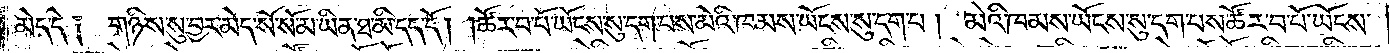མེད་དེ། གཉིས་སུ་བྱར་མེད་སོ་སོ་མ་ཡིན་ཐ་མི་དད་དོ། །ཚོར་བ་པོ་ཡོངས་སུ་དག་པས་མེའི་ཁམས་ཡོངས་སུ་དག་པ། མེའི་ཁམས་ཡོངས་སུ་དག་པས་ཚོར་བ་པོ་ཡོངས་
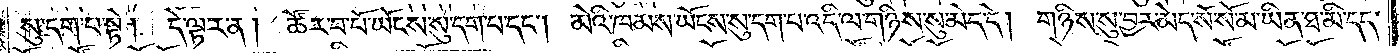སུ་དག་པ་སྟེ། དེ་ལྟར་ན། ཚོར་བ་པོ་ཡོངས་སུ་དག་པ་དང༌། མེའི་ཁམས་ཡོངས་སུ་དག་པ་འདི་ལ་གཉིས་སུ་མེད་དེ། གཉིས་སུ་བྱར་མེད་སོ་སོ་མ་ཡིན་ཐ་མི་དད་
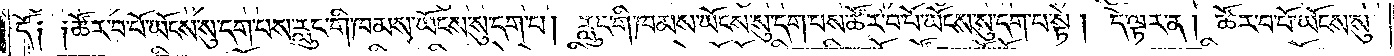དོ༑ ༑ཚོར་བ་པོ་ཡོངས་སུ་དག་པས་རླུང་གི་ཁམས་ཡོངས་སུ་དག་པ། རླུང་གི་ཁམས་ཡོངས་སུ་དག་པས་ཚོར་བ་པོ་ཡོངས་སུ་དག་པ་སྟེ། དེ་ལྟར་ན། ཚོར་བ་པོ་ཡོངས་སུ་
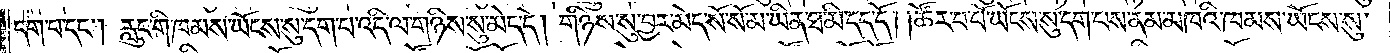དག་པ་དང༌། རླུང་གི་ཁམས་ཡོངས་སུ་དག་པ་འདི་ལ་གཉིས་སུ་མེད་དེ། གཉིས་སུ་བྱར་མེད་སོ་སོ་མ་ཡིན་ཐ་མི་དད་དོ། །ཚོར་བ་པོ་ཡོངས་སུ་དག་པས་ནམ་མཁའི་ཁམས་ཡོངས་སུ་
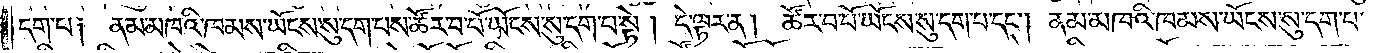དག་པ༑ ནམ་མཁའི་ཁམས་ཡོངས་སུ་དག་པས་ཚོར་བ་པོ་ཡོངས་སུ་དག་པ་སྟེ། དེ་ལྟར་ན། ཚོར་བ་པོ་ཡོངས་སུ་དག་པ་དང༌། ནམ་མཁའི་ཁམས་ཡོངས་སུ་དག་པ་
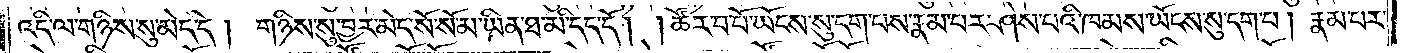འདི་ལ་གཉིས་སུ་མེད་དེ། གཉིས་སུ་བྱར་མེད་སོ་སོ་མ་ཡིན་ཐ་མི་དད་དོ། །ཚོར་བ་པོ་ཡོངས་སུ་དག་པས་རྣམ་པར་ཤེས་པའི་ཁམས་ཡོངས་སུ་དག་པ། རྣམ་པར་
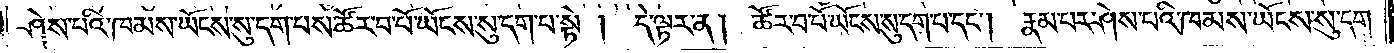ཤེས་པའི་ཁམས་ཡོངས་སུ་དག་པས་ཚོར་བ་པོ་ཡོངས་སུ་དག་པ་སྟེ། དེ་ལྟར་ན། ཚོར་བ་པོ་ཡོངས་སུ་དག་པ་དང༌། རྣམ་པར་ཤེས་པའི་ཁམས་ཡོངས་སུ་དག་
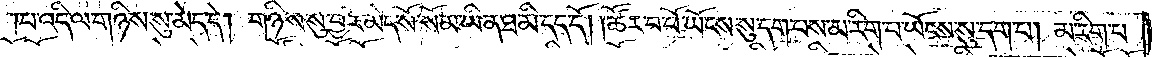པ་འདི་ལ་གཉིས་སུ་མེད་དེ། གཉིས་སུ་བྱར་མེད་སོ་སོ་མ་ཡིན་ཐ་མི་དད་དོ། །ཚོར་བ་པོ་ཡོངས་སུ་དག་པས་མ་རིག་པ་ཡོངས་སུ་དག་པ། མ་རིག་པ་
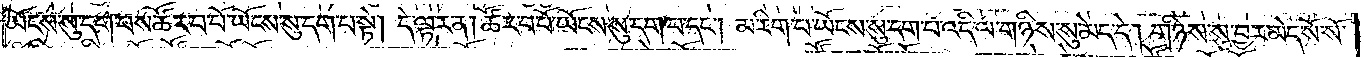ཡོངས་སུ་དག་པས་ཚོར་བ་པོ་ཡོངས་སུ་དག་པ་སྟེ། དེ་ལྟར་ན། ཚོར་བ་པོ་ཡོངས་སུ་དག་པ་དང༌། མ་རིག་པ་ཡོངས་སུ་དག་པ་འདི་ལ་གཉིས་སུ་མེད་དེ། གཉིས་སུ་བྱར་མེད་སོ་སོ་
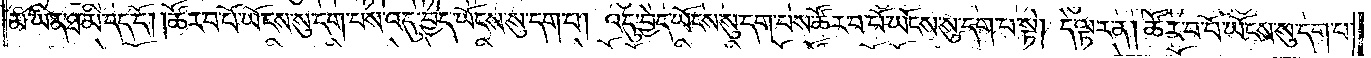མ་ཡིན་ཐ་མི་དད་དོ། །ཚོར་བ་པོ་ཡོངས་སུ་དག་པས་འདུ་བྱེད་ཡོངས་སུ་དག་པ། འདུ་བྱེད་ཡོངས་སུ་དག་པས་ཚོར་བ་པོ་ཡོངས་སུ་དག་པ་སྟེ། དེ་ལྟར་ན། ཚོར་བ་པོ་ཡོངས་སུ་དག་པ་
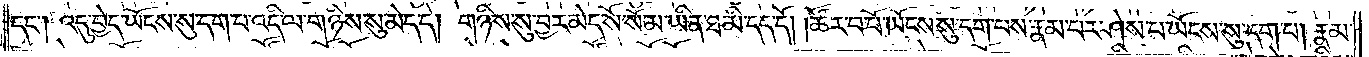དང༌། འདུ་བྱེད་ཡོངས་སུ་དག་པ་འདི་ལ་གཉིས་སུ་མེད་དེ། གཉིས་སུ་བྱར་མེད་སོ་སོ་མ་ཡིན་ཐ་མི་དད་དོ། །ཚོར་བ་པོ་ཡོངས་སུ་དག་པས་རྣམ་པར་ཤེས་པ་ཡོངས་སུ་དག་པ། རྣམ་
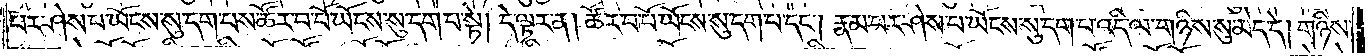པར་ཤེས་པ་ཡོངས་སུ་དག་པས་ཚོར་བ་པོ་ཡོངས་སུ་དག་པ་སྟེ། དེ་ལྟར་ན། ཚོར་བ་པོ་ཡོངས་སུ་དག་པ་དང༌། རྣམ་པར་ཤེས་པ་ཡོངས་སུ་དག་པ་འདི་ལ་གཉིས་སུ་མེད་དེ། གཉིས་
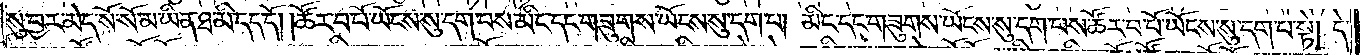སུ་བྱར་མེད་སོ་སོ་མ་ཡིན་ཐ་མི་དད་དོ། །ཚོར་བ་པོ་ཡོངས་སུ་དག་པས་མིང་དང་གཟུགས་ཡོངས་སུ་དག་པ། མིང་དང་གཟུགས་ཡོངས་སུ་དག་པས་ཚོར་བ་པོ་ཡོངས་སུ་དག་པ་སྟེ། དེ་
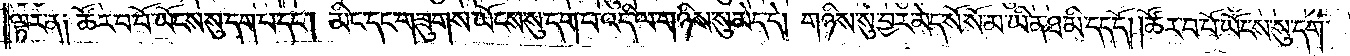ལྟར་ན། ཚོར་བ་པོ་ཡོངས་སུ་དག་པ་དང༌། མིང་དང་གཟུགས་ཡོངས་སུ་དག་པ་འདི་ལ་གཉིས་སུ་མེད་དེ། གཉིས་སུ་བྱར་མེད་སོ་སོ་མ་ཡིན་ཐ་མི་དད་དོ། །ཚོར་བ་པོ་ཡོངས་སུ་དག་
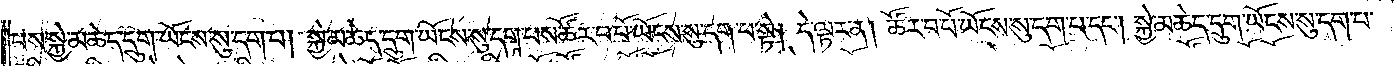པས་སྐྱེ་མཆེད་དྲུག་ཡོངས་སུ་དག་པ། སྐྱེ་མཆེད་དྲུག་ཡོངས་སུ་དག་པས་ཚོར་བ་པོ་ཡོངས་སུ་དག་པ་སྟེ། དེ་ལྟར་ན། ཚོར་བ་པོ་ཡོངས་སུ་དག་པ་དང༌། སྐྱེ་མཆེད་དྲུག་ཡོངས་སུ་དག་པ་
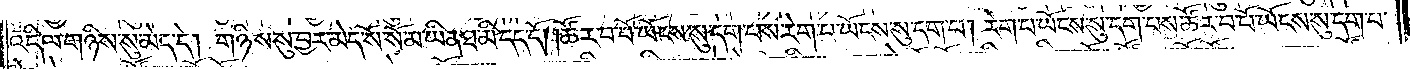འདི་ལ་གཉིས་སུ་མེད་དེ། གཉིས་སུ་བྱར་མེད་སོ་སོ་མ་ཡིན་ཐ་མི་དད་དོ། །ཚོར་བ་པོ་ཡོངས་སུ་དག་པས་རེག་པ་ཡོངས་སུ་དག་པ། རེག་པ་ཡོངས་སུ་དག་པས་ཚོར་བ་པོ་ཡོངས་སུ་དག་པ་
